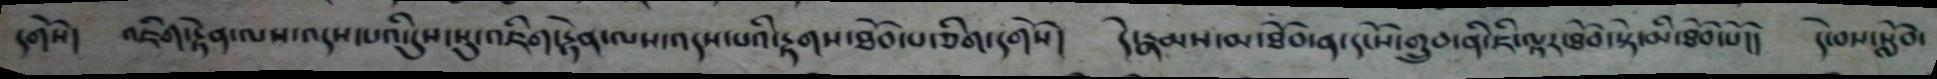དགོས། འཇིག་རྟེན་ལས་འདས་པཔའི་དུས་སུ་འཇིག་རྟེན་ལས་འདས་པའི་རྟགས་ཐོབ་པ་ཅིག་དགོས། དེ་རྣམས་མ་ཐོབ་ན་དངོས་གྲུབ་ནི་ཇི་ལྟར་ཐོབ་སྟེ་མི་ཐོབ་པོ།། དེ་བས་སློབ་
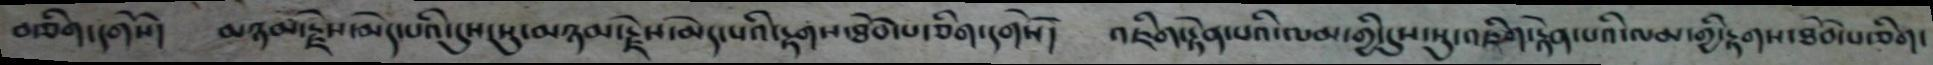བརྩིག་དགོས། མཉམ་རྗེས་མེད་པཔའི་དུས་སུ་མཉམ་རྗེས་མེད་པའི་རྟགས་ཐོབ་པ་ཅིག་དགོས། འཇིག་རྟེན་པའི་ལམ་གྱི་དུས་སུ་འཇིག་རྟེན་པའི་ལམ་གྱི་རྟགས་ཐོབ་པ་ཅིག་
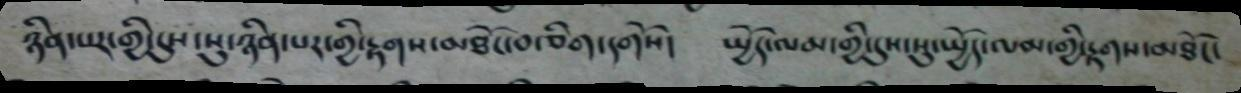ཉིན་པར་གྱི་དུས་སུ་ཉིན་པར་གྱི་རྟགས་མཐོང་བ་ཅིག་དགོས། སྤྱོད་ལམ་གྱི་དུས་སུ་སྤྱོད་ལམ་གྱི་རྟགས་མཐོང་
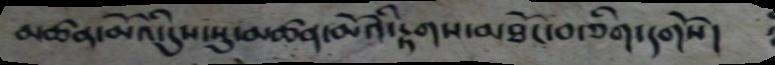མཚན་མོའི་དུས་སུ་མཚན་མོའི་རྟགས་མཐོང་བ་ཅིག་དགོས།
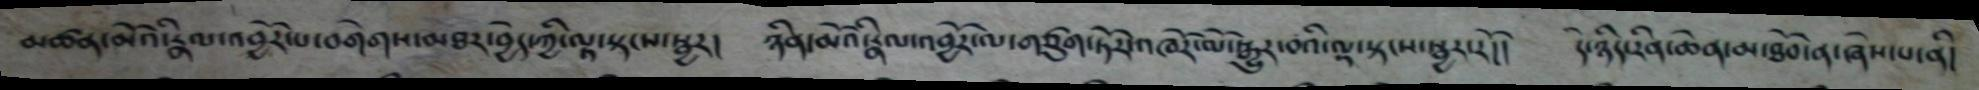མཚན་མིའི་རྣལ་འབྱོར་པ་བགེགས་མཐར་བྱེད་ཀྱི་ལྟ་སྟངས་སྦྱར། ཉིན་མོའི་རྣལ་འབྱོར་ལ་གཙུག་ཏོར་འཁོར་ལོ་སྒྱུར་བའི་ལྟ་སྟངས་སྦྱར་རོ།། དེ་ཉིད་རིན་ཆེན་མ་ཐོབ་ན་ཞེས་པ་ནི།
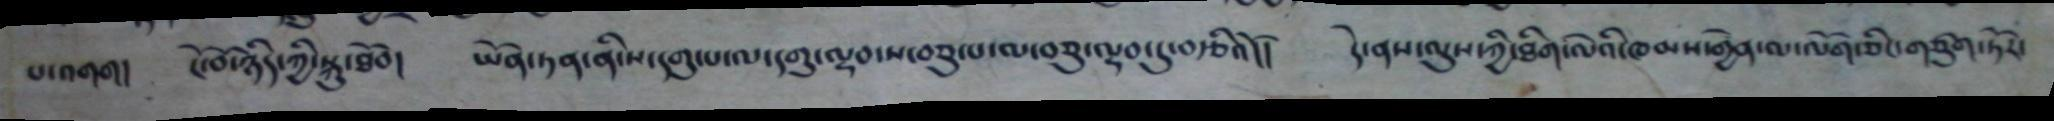པ་འགག། ངོ་བོ་ཉིད་ཀྱི་སྐུ་ཐོབ། ཡོན་ཏན་ནི་ས་དགུ་པ་ལ་དགུ་ལྡབ་ས་བཅུ་པ་ལ་བཅུ་ལྡབ་དུ་བརྩིའོ།། དེ་ནས་ལུས་ཀྱི་ཐིག་ལེའི་ཁམས་གྱེན་ལ་ལོག་ཅིང་གཙུག་ཏོར་
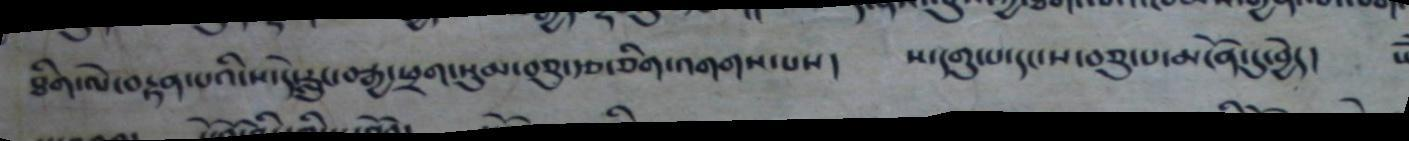ཐིག་ལེ་བརྟན་པའི་ས་དེ་རླུང་བརྒྱ་ཕྲག་སུམ་བཅུ་རྩ་ཅིག་འགགས་པས། ས་དགུ་པ་དང་ས་བཅུ་པ་མངོན་དུ་བྱེད།
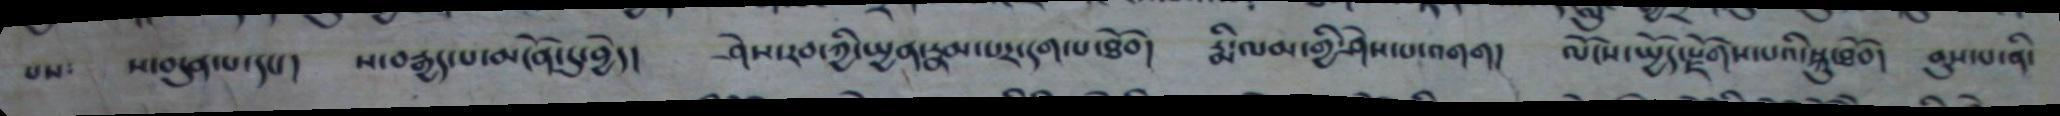པས༴ ས་བདུན་པ་དང་། ས་བརྒྱད་པ་མངོན་དུ་བྱེད། ཤེས་རབ་ཀྱི་སྤྱན་རྣམ་པར་དག་པ་ཐོབ། རྨི་ལམ་གྱི་ཤེས་པ་འགག། ལོངས་སྤྱོད་སྫོགས་པའི་སྐུ་ཐོབ། ནུས་པ་ནི་
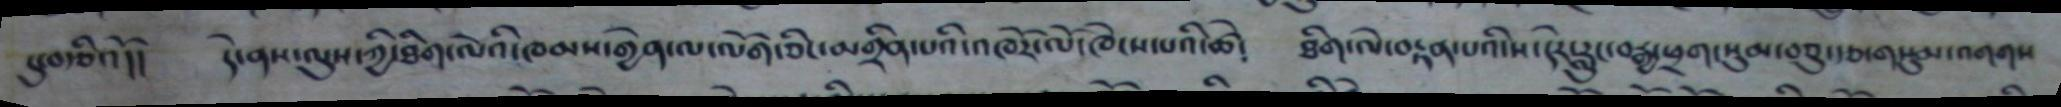དུ་བརྩིའོ།། དེ་ནས་ལུས་ཀྱི་ཐིག་ལེའི་ཁམས་གྱེན་ལ་ལོག་ཅིང་མགྲིན་པའི་འཁོར་ལོ་ཁེངས་པའི་ཚེ༴ ཐིག་ལེ་བརྟན་པའི་ས་དེར་རླུང་བརྒྱ་ཕྲག་སུམ་བཅུ་རྩ་གསུམ་འགགས
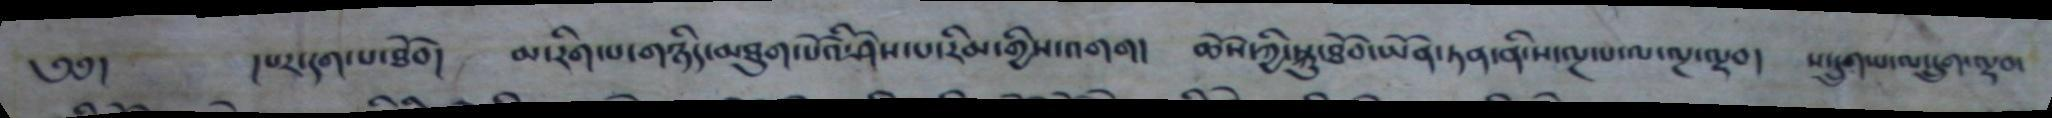༄༅། །པར་དག་པ་ཐོབ། མ་རིག་པ་གཉིད་མཐུག་པོའི་ཤེས་པ་རིམ་གྱིས་འགག། ཆོས་ཀྱི་སྐུ་ཐོབ་ཡོན་ཏན་ནི་ས་ལྔ་པ་ལ་ལྔ་ལྡབ། ས་དྲུག་པ་ལ་དྲུག་ལྡབ་
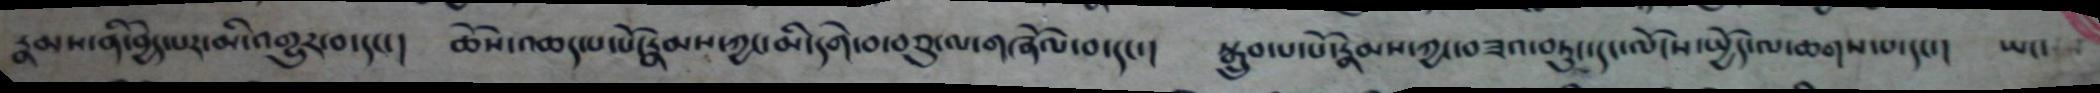རྣམས་ནི་བྱེད་པར་མི་འགྱུར་བ་དང་། ཆོས་འཆད་པ་པོ་རྣམས་ཀྱང་མི་དགེ་བ་བཅུ་ལ་གཞོལ་བ་དང་། སྒྲུབ་པ་པོ་རྣམས་ཀྱང་བཟའ་བཏུང་དང་ལོངས་སྤྱོད་ལ་ཆགས་པ་དང་། ཡང་
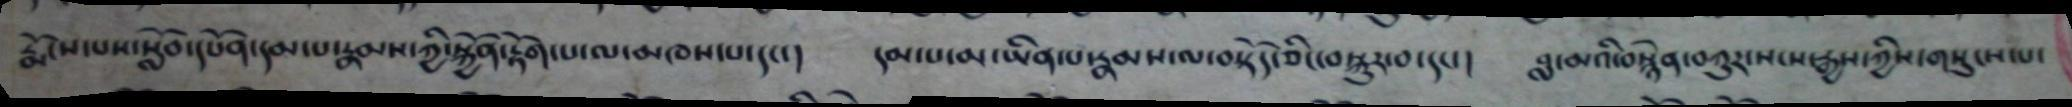རྨོངས་པས་སློབ་དཔོན་དམ་པ་རྣམས་ཀྱི་སྐྱོན་རྟོག་པ་ལ་མཁས་པ་དང་། དམ་པ་མ་ཡིན་པ་རྣམས་ལ་བསྟོད་ཅིང་བསྐུར་བ་དང་། བླ་མའི་བསྙེན་བཀུར་སངས་རྒྱས་ཀྱིས་གསུངས་པ་
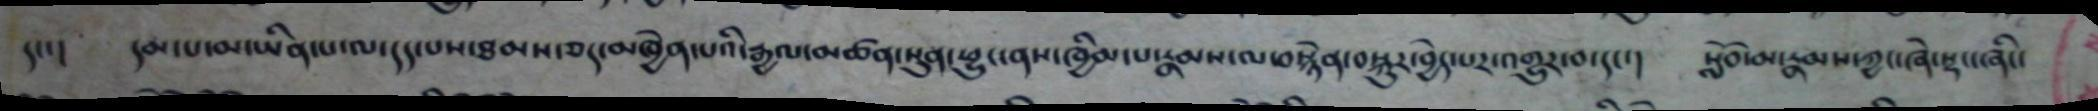དང་། དམ་པ་མ་ཡིན་པ་ལ་དད་པས་ཐམས་ཅད་མཁྱེན་པའི་རྒྱལ་མཚན་སུན་ཕྱུང་ནས་ཁྱིམ་པ་རྣམས་ལ་བསྙེན་བསྐུར་བྱེད་པར་འགྱུར་བ་དང་། སློབ་མ་རྣམས་ཀྱང་ཞེ་སྡང་ཞིང་
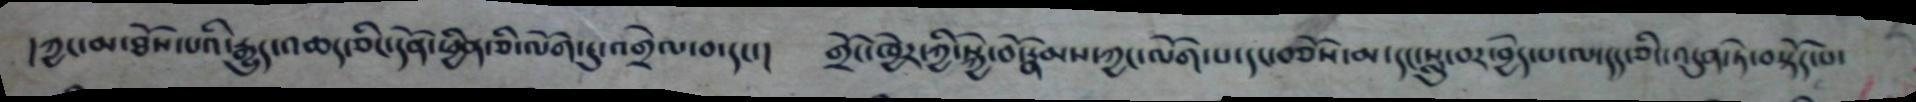།ཀྱང་མ་ཐོས་པའི་རྒྱུད་འཆད་ཅིང་དོན་ཕྱིན་ཅི་ལོག་དུ་འགྲེལ་བ་དང་། གྲོང་ཁྱེར་ཀྱི་སྐྱེ་བོ་རྣམས་ཀྱང་ལོག་པ་དང་བཅོས་མ་དང་སླུ་བར་བྱེད་པ་ལ་དད་ཅིང་འདུན་ཏེ་བསྟོད་པ་
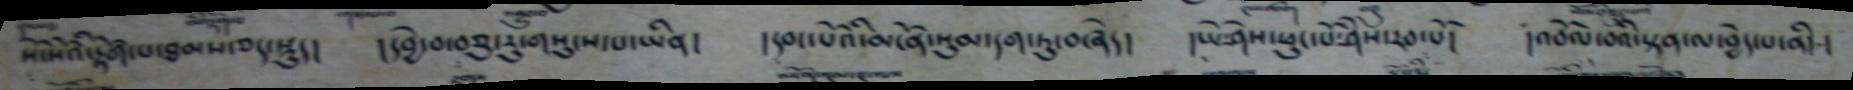སོ་མོའི་རྟོག་པ་ཐམས་ཅད་སྡུད།  ། དབྱེ་བ་བཅུ་རུ་གསུངས་པ་ཡིན།   ། དབང་པོའི་མངོན་སུམ་དག་ཏུ་བཞད།  ཡེ་ཤེས་ཕུང་པོ་ཤེས་རབ་པོ།   ། འབོལ་བའི་སྟན་ལ་བྱེད་པ་ནི།  །
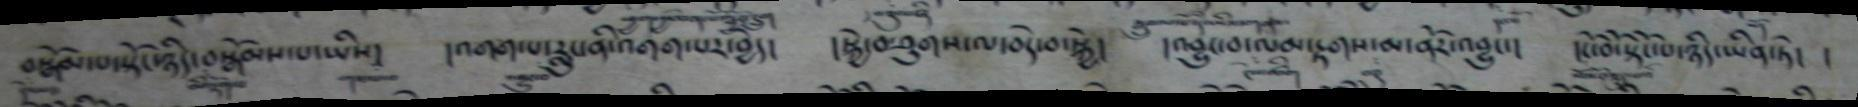བསྒོམ་པ་སྟོང་ཉིད་བསྒོམས་པ་ཡིས།     ། འགག་པ་རླུང་ནི་འགག་པར་བྱེད།    །སྐྱེ་བ་ཤུགས་ལ་བདེ་བ་སྐྱེ།   འབྱུང་བ་ལམ་རྟགས་མ་ནོར་འབྱུང་།   །ངོ་བོ་སྟོང་པ་ཉིད་ཡིན་ཏེ།   །
